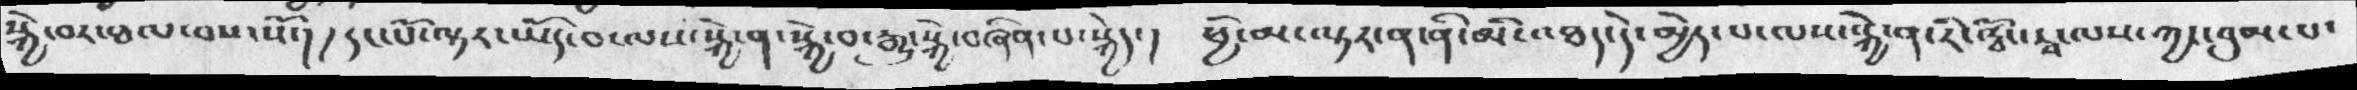སྐྱེ་བར་ཐལ་བས་སོ་། །དང་པོ་ལྟར་ཡོད་བ་ལས་སྐྱེ་ན་སྐྱེ་བ་རྒྱུ་སྐྱེ་བཞིན་པ་སྐྱེད་། ཕྱི་མ་ལྟར་ན་ནི་མི་འཐད་དེ་མྱེད་པ་ལས་སྐྱེ་ན་རི་ཝོང་རྭ་ལས་ཀྱང་བུམ་པ་
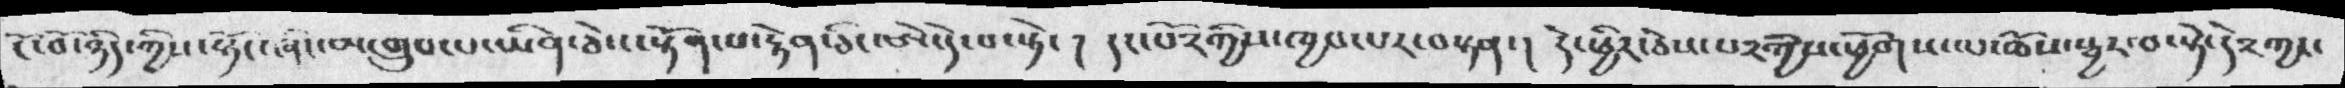ངོ་བོ་ཉིད་ཀྱིས་སྟོང་ཞིང་མ་གྲུབ་པ་ཡིན་ཅེས་སྟོན་པ་རྟེན་ཅིང་ཨེ་དེ་པ་སྟེ་ ། དང་པོ༢ཀྱིས་ཁྱབ་པར་བསྟན་། དེ་ཕྱིར་ཅེས་པ༢གྱིས་ཕྱོགས་ལ་ཆོས་སྦྱར་བ་སྟེ་དེ༢ཀྱང་
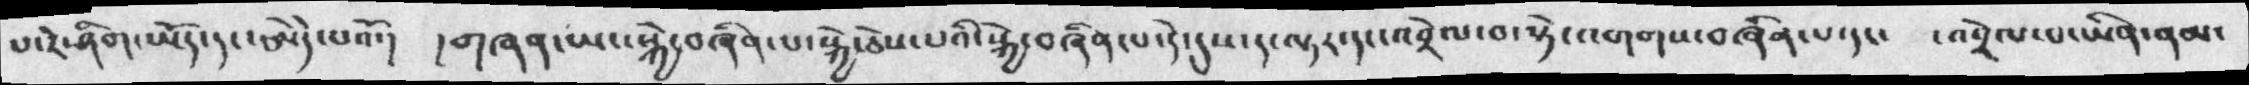པ་རེ་ཤིག་ཡོད་དང་ཨེདེ་པའོ་།  །གཞན་ཡང་སྐྱེ་བཞིན་པ་སྐྱེ་ཅེས་པའི་སྐྱེ་བཞིན་པ་དེ་དུས་ད་ལྟར་དང་འབྲེལ་བ་སྟེ་འགགས་བཞིན་པ་དང་   ་འབྲེལ་པ་ཡིན་ནམ་
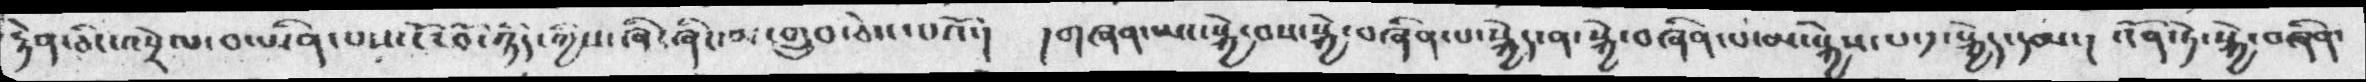རྟེན་ཅིང་འབྲེལ་བ་ཡིན་པས་ངོ་བོ་ཉིད་ཀྱིས་ཞི་ཞིང་མ་གྲུབ་ཅེས་པའོ་།  །གཞན་ཡང་སྐྱེ་བས་སྐྱེ་བཞིན་པ་སྐྱེད་ན་སྐྱེ་བཞིན་པ་མ་སྐྱེས་པ་༡་སྐྱེད་དམ་།  འོན་ཏེ་སྐྱེ་བཞིན་
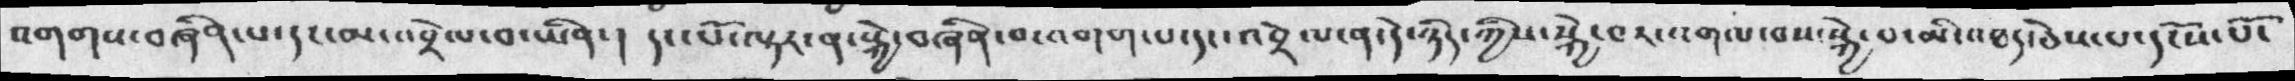འགགས་བཞིན་པ་དང་མ་འབྲེལ་བ་ཡིན་།  དང་པོ་ལྟར་ན་སྐྱེ་བཞིན་པ་འགག་པ་དང་འབྲེལ་ན་དེ་ཉིད་ཀྱིས་སྐྱེ་བར་འགལ་བས་སྐྱེ་པ་མི་འཐད་ཅེས་པ་དངོས་པོ་
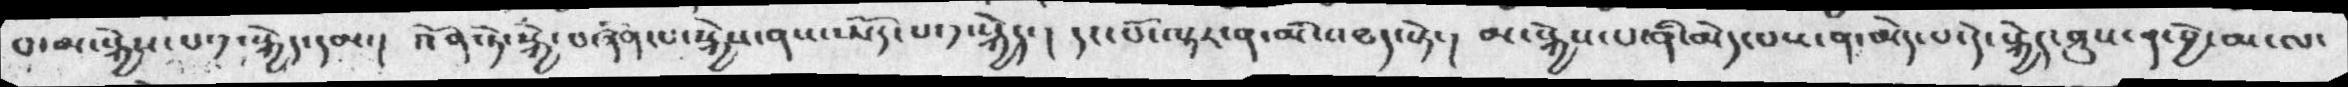བ་མ་སྐྱེས་པ༡་སྐྱེད་དམ་།  འོན་ཏེ་སྐྱེ་བཞིན་པ་སྐྱེས་ནས་ཡོད་པ་༡་སྐྱེད་།  དང་པོ་ལྟར་ན་མི་འཐད་སྟེ་།  མ་སྐྱེས་པ་ནི་མེད་པས་ན་མེད་པ་དེ་སྐྱེད་ཤུས་ན་བྱེ་མ་ལ་
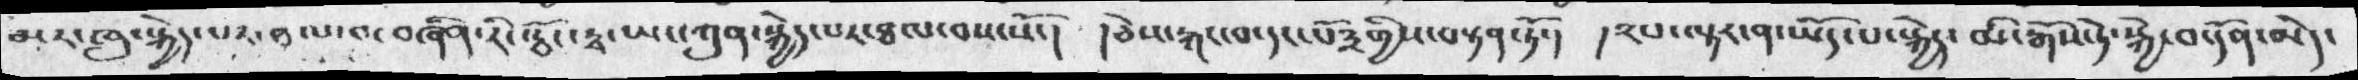མར་ཁུ་སྐྱེད་པར་ཐལ་བ་བཞིན་རི་རྦོང་རྭ་ཡང་ཀུན་སྐྱེད་པར་ཐལ་བས་སོ་།  །ཅེས་རྐང་བ་དང་པོ༣གྱིས་བསྟན་ཏོ་།  །༢པ་ལྟར་ན་ཡོད་པ་སྐྱེད་ མི་རྒོས་ཏེ་སྐྱེ་བ་དོན་མེད་
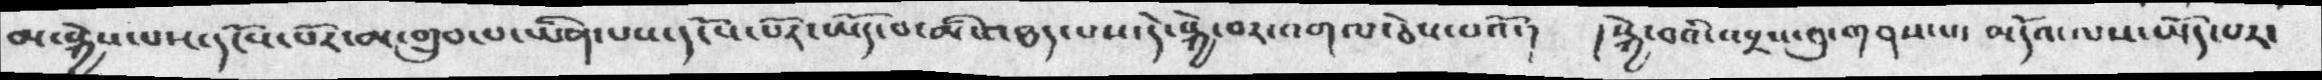མ་སྐྱེས་པས་དངོས་པོར་མ་གྲུབ་པ་ཡིན་པས་དངོས་པོར་ཡོད་པ་མི་འཐད་པས་དེ་སྐྱེ་བར་འགལ་ཅེས་པའོ་།   །སྐྱེ་བའི་འབྲས་བུ་གནས་པ་ མདོའ་ལས་ཡོད་པར་
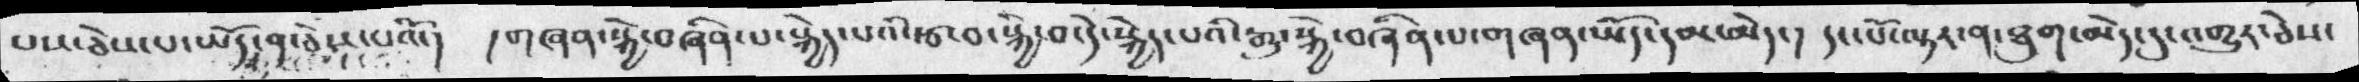པས་ཅེས་པ་ཡོད་ན་ཅེས་པའོ་།  །གཞན་སྐྱེ་བཞིན་པ་སྐྱེད་པའི་རྩ་བ་སྐྱེ་བ་དེ་སྐྱེད་པའི་རྒུ་སྐྱེ་བཞིན་པ་གཞན་ཡོད་དམ་མེད་།  དང་པོ་ལྟར་ན་ཐུག་མེད་དུ་འགྲུར་ཅེས་
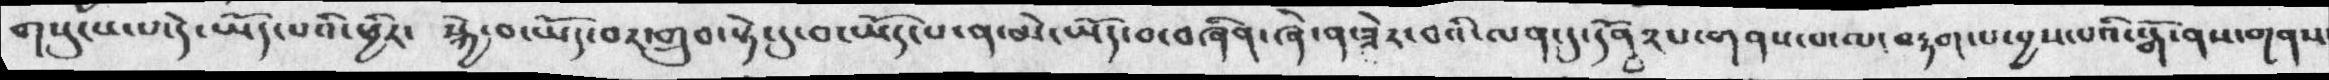གསུངས་པ་དེ་ཡོད་པའི་ཕྱིར་   སྐྱེ་བ་ཡོད་བར་གྲུབ་སྟེ་དུ་བ་ཡོད་པ་ན་མེ་ཡོད་བ་བཞིན་ཞེ་ན་ཟེར་བའི་ལན་དུ་དོན༢པ་གནས་པ་ལ་བརྟག་པ་བྱས་པའི་སྒོ་ནས་གནས་
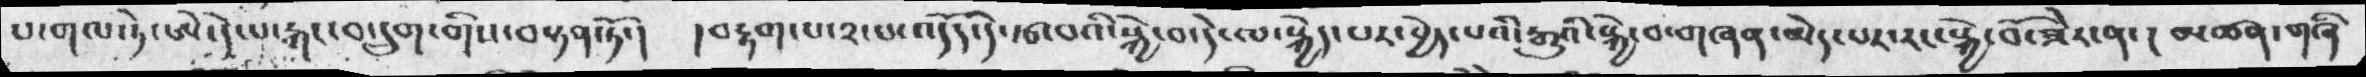པ་གལ་ཏེ་ཨེ་དེ་པ་རྐང་བ་དྲུག་གི་བསྟན་ཏོ་། །བརྟག་པ་༢་པ་འདོད་དེ་རྩ་བའི་སྐྱེ་བ་དེ་ལ་སྐྱེད་པར་བྱེད་པའི་རྒྱུའི་སྐྱེ་བ་གཞན་མེད་པར་རང་སྐྱེ་བོ་ཟེར་ན་། མཚན་གཞི
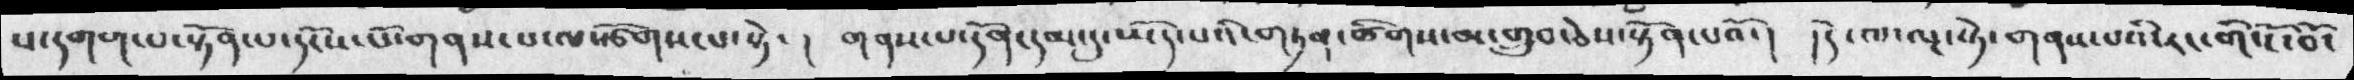པ་དགག་པ་སྟོན་པ་དངོས་པོ་གནས་པ་ལསྩོགས་པ་སྟེ་ ། གནས་པ་དོན་དམ་དུ་ཡོད་པའི་གཏན་ཚིགས་མ་གྲུབ་ཅེས་སྟོན་པའོ་། །དེ་ལ་ལྔ་སྟེ་གནས་པའི་རང་གི་ངོ་བོ་
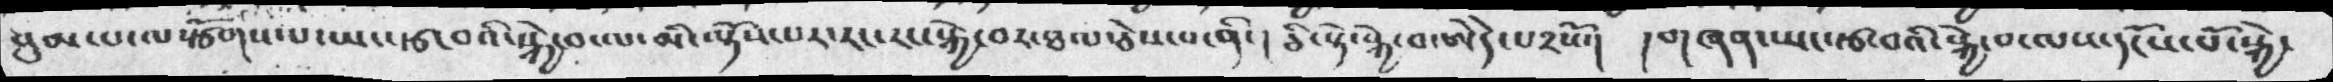བུམ་པ་ལསྩོགས་པ་ཡང་རྩ་བའི་སྐྱེ་བ་ལ་མི་ལྟོས་པར་རང་རང་སྐྱེ་བར་ཐལ་ཅེས་པ་ནི་། ཅི་སྟེ་སྐྱེ་བ་ཨེདེ་པ༢སོ།  །གཞན་ཡང་རྩ་བའི་སྐྱེ་བ་ལས་དངོས་པོ་སྐྱེ་
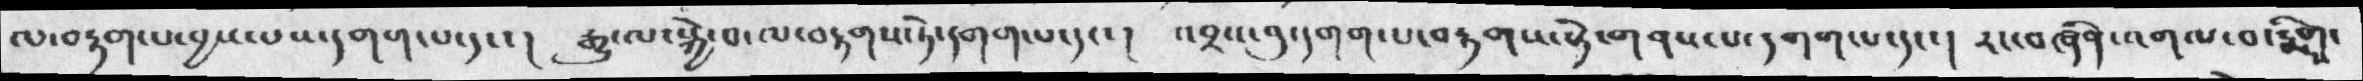ལ་བརྟག་པ་བྱས་པས་དགག་པ་དང་།  རྒྱུ་ལ་སྐྱེ་བ་ལ་བརྟགས་ཏེ་དགག་པ་དང་།  འབྲས་བུ་དགག་པ་བརྟགས་སྟེ་གནས་པ་དགག་པ་དང་།   རང་བཞིན་འགལ་བ་རྨིགས་
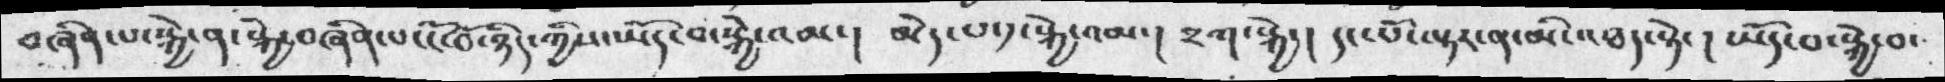བཞིན་པ་སྐྱེ་ན་སྐྱེ་བཞིན་པ་ངོ་བོ་ཉིད་ཀྱིས་ཡོད་བ་སྐྱེ་འམ་།  མེད་པ་༡་སྐྱེ་འམ་།  བྲག་སྐྱེད་།  དང་པོ་ལྟར་ན་མི་འཐད་སྟེ་ ། ཡོད་པ་སྐྱེ་བ་
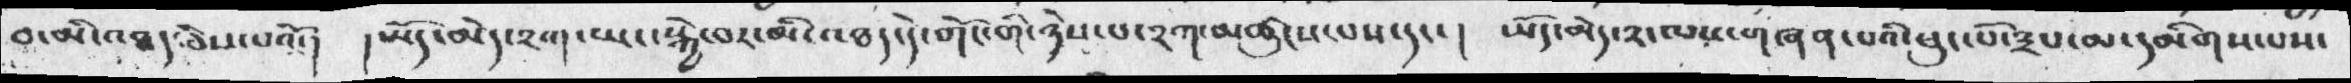བ་མི་འཐད་ཅེས་པའོ་།  །ཡོད་མེ་༢ག་ཡང་སྐྱེ་བར་མི་འཐད་དེ་གོང་གི་ཉེས་པ་༢ཀ་མཚུངས་པས་དང་།    ཡོད་མེད་༢་ལས་གཞན་པའི་ཕུང་པོ་༣པ་མ་དམིགས་པས་
